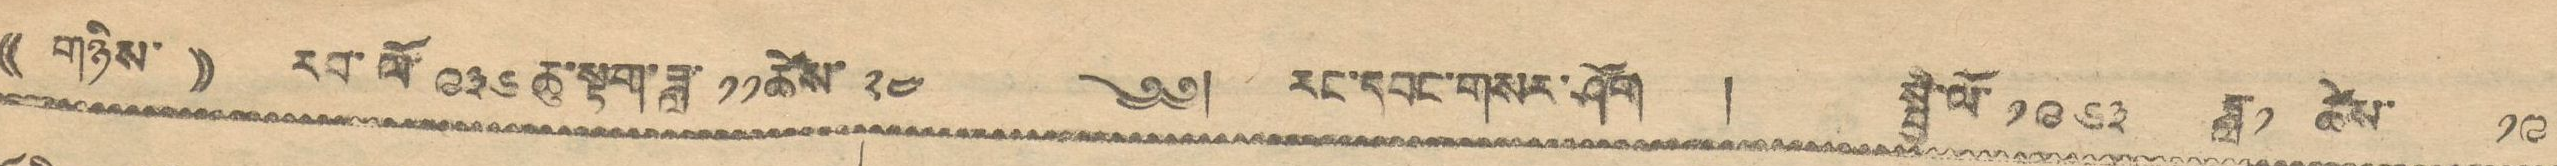((གཉིས་)) རབ་ལོ་ ༩༣༦ ཆུ་སྟག་ཟླ་ ༡༡ ཚེས་ ༢༤ ༄༅། རང་དབང་གསར་ཤོག །སྤྱི་ལོ་ ༡༩༦༣ ཟླ་ ༡ ཚེས་ ༡༩
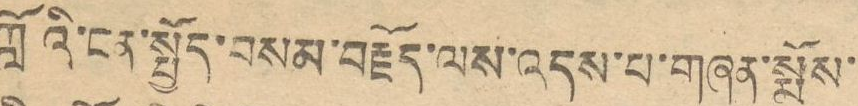ཀློའི་ངན་སྤྱོད་བསམ་བརྗོད་ལས་འདས་པ་གཞན་སྨོས་
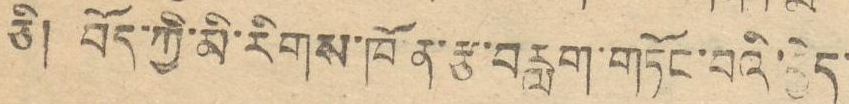ཅི། བོད་ཀྱི་མི་རིགས་ཁོ་ན་རྩ་བརླག་གཏོང་བའི་བྱེད་
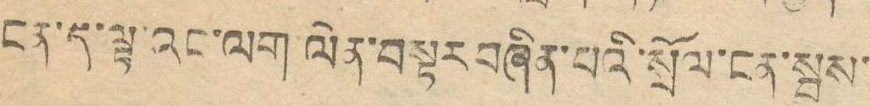ངན་ད་ལྟ་འང་ལག་ལེན་བསྟར་བཞིན་པའི་སྲོལ་ངན་སྦས་
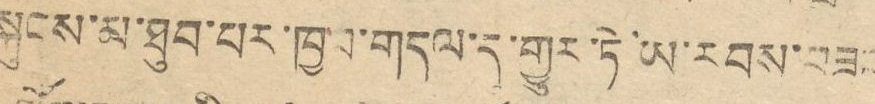སྐུངས་མ་ཐུབ་པར་ཁྱབ་གདལ་ད་གྱུར་ཏེ་ཡ་རབས་བཟང་
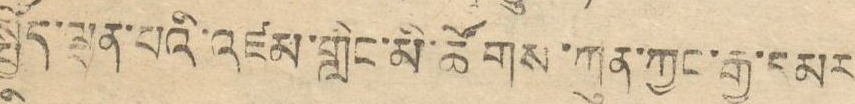སྤྱོད་ལྡན་པའི་འཛམ་གླིང་མི་ཚོགས་ཀུན་ཀྱང་རྒྱ་དམར
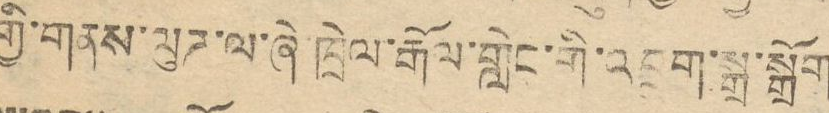གྱི་གནས་ལུཊ་ལ་ཞ་ཁྲེལ་རྒོལ་གླེང་གི་འབྲུག་སྒྲ་སྒྲོག
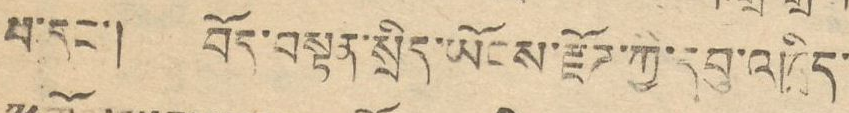པ་དང་། བོད་བསྟན་སྲིད་ཡོངས་རྫོཊ་ཀྱི་དབུ་འཁྲིད་
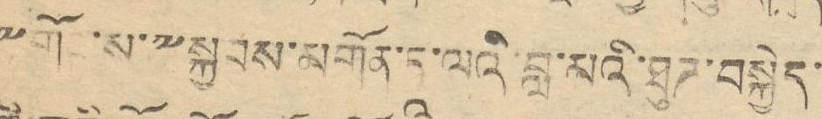༸གོང་ས་༸སྐྱབས་མགོན་ཏཱ་ལའི་བླ་མའི་ཐུཊ་བསྐྱེད་
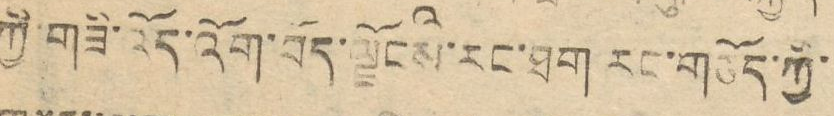གྱི་གཟི་འོད་འོག་བོད་ལྗོངས་རང་ཐག་གཅོད་ཀྱི་
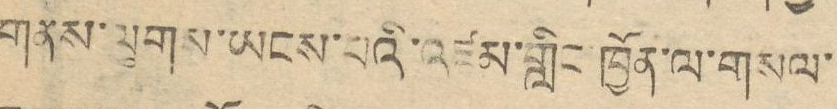གནས་ལུགས་ཡངས་པའི་འཛམ་གླིང་ཁྱོན་ལ་གསལ་
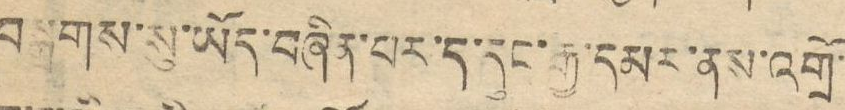བསྒྲགས་སུ་ཡོད་བཞིན་པར་ད་དུང་རྒྱ་དམར་ནས་འགྲོ་
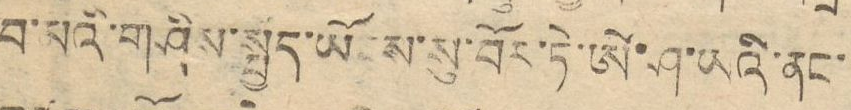བ་མའི་གཤིས་སྤྱོད་ཡོངས་སུ་བོར་ཏེ་ཨེ་ཤ་ཡའི་ནང་
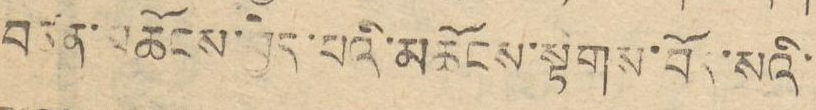བཙན་མཆོངས་བྱེད་པའི་མཆོངས་སྟེགས་བོར་སའི་
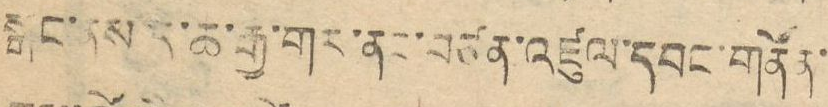སྒང་ནས་ད་ཆ་རྒྱ་གར་ནང་བཙན་འཛུལ་དབང་གནོན་
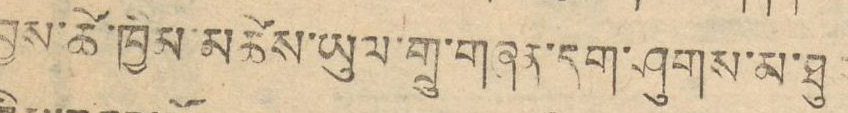བྱས་ཚེ་ཁྱིམ་མཚེས་ཡུལ་གྲུ་གཞན་དག་ཤུགས་མ་ཐུང་
